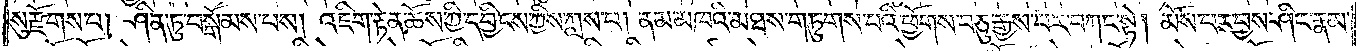སུ་རྫོགས་པ། ཤིན་ཏུ་བསྒོམས་པས། འཇིག་རྟེན་ཆོས་ཀྱི་དབྱིངས་ཀྱིས་ཀླས་པ། ནམ་མཁའི་མཐས་གཏུགས་པའི་ཕྱོགས་བཅུ་རྒྱས་པར་བཀང་སྟེ། མོས་པར་བྱས་ཤིང་རྣམ་
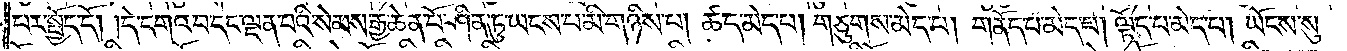པར་སྤྱོད་དོ། །དེ་དགའ་བ་དང་ལྡན་པའི་སེམས་རྒྱ་ཆེན་པོ་ཤིན་ཏུ་ཡངས་པ་མི་གཉིས་པ། ཚད་མེད་པ། གཅུགས་མེད་པ། གནོད་པ་མེད་པ། ལྟོད་པ་མེད་པ། ཡོངས་སུ་
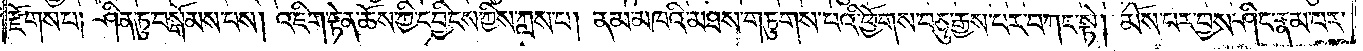རྫོགས་པ། ཤིན་ཏུ་བསྒོམས་པས། འཇིག་རྟེན་ཆོས་ཀྱི་དབྱིངས་ཀྱིས་ཀླས་པ། ནམ་མཁའི་མཐས་གཏུགས་པའི་ཕྱོགས་བཅུ་རྒྱས་པར་བཀང་སྟེ། མོས་པར་བྱས་ཤིང་རྣམ་པར་
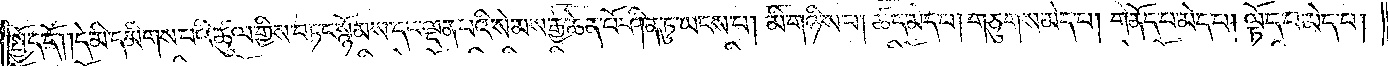སྤྱོད་དོ། །དེ་མི་དམིགས་པའི་ཚུལ་གྱིས་བཏང་སྙོམས་དང་ལྡན་པའི་སེམས་རྒྱ་ཆེན་པོ་ཤིན་ཏུ་ཡངས་པ། མི་གཉིས་པ། ཚད་མེད་པ། གཅུགས་མེད་པ། གནོད་པ་མེད་པ། ལྟོད་པ་མེད་པ།
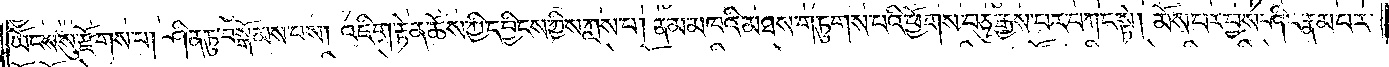ཡོངས་སུ་རྫོགས་པ། ཤིན་ཏུ་བསྒོམས་པས། འཇིག་རྟེན་ཆོས་ཀྱི་དབྱིངས་ཀྱིས་ཀླས་པ། ནམ་མཁའི་མཐས་གཏུགས་པའི་ཕྱོགས་བཅུ་རྒྱས་པར་བཀང་སྟེ། མོས་པར་བྱས་ཤིང་རྣམ་པར་
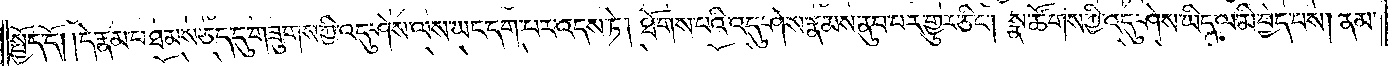སྤྱོད་དོ། །དེ་རྣམ་པ་ཐམས་ཅད་དུ་གཟུགས་ཀྱི་འདུ་ཤེས་ལས་ཡང་དག་པར་འདས་ཏེ། ཐོགས་པའི་འདུ་ཤེས་རྣམས་ནུབ་པར་གྱུར་ཅིང༌། སྣ་ཚོགས་ཀྱི་འདུ་ཤེས་ཡིད་ལ་མི་བྱེད་པས། ནམ་
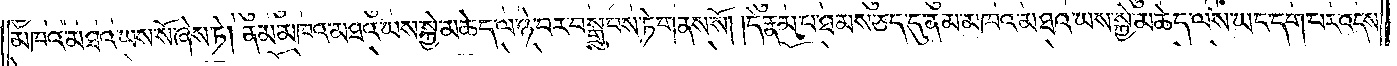མཁའ་མཐའ་ཡས་སོ་ཞེས་ཏེ། ནམ་མཁའ་མཐའ་ཡས་སྐྱེ་མཆེད་ལ་ཉེ་བར་བསྒྲུབས་ཏེ་གནས་སོ། །དེ་རྣམ་པ་ཐམས་ཅད་དུ་ནམ་མཁའ་མཐའ་ཡས་སྐྱེ་མཆེད་ལས་ཡང་དག་པར་འདས་
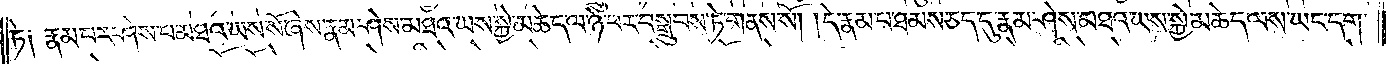ཏེ། རྣམ་པར་ཤེས་པ་མཐའ་ཡས་སོ་ཞེས་རྣམ་ཤེས་མཐའ་ཡས་སྐྱེ་མཆེད་ལ་ཉེ་བར་བསྒྲུབས་ཏེ་གནས་སོ། །དེ་རྣམ་པ་ཐམས་ཅད་དུ་རྣམ་ཤེས་མཐའ་ཡས་སྐྱེ་མཆེད་ལས་ཡང་དག་
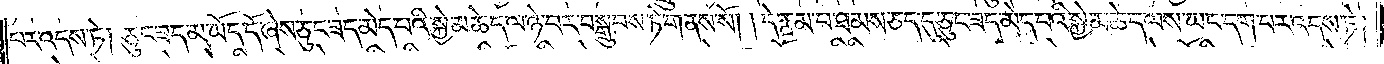པར་འདས་ཏེ། ཅུང་ཟད་མ་ཡོད་དོ་ཞེས་ཅུང་ཟད་མེད་པའི་སྐྱེ་མཆེད་ལ་ཉེ་བར་བསྒྲུབས་ཏེ་གནས་སོ། །དེ་རྣམ་པ་ཐམས་ཅད་དུ་ཅུང་ཟད་མེད་པའི་སྐྱེ་མཆེད་ལས་ཡང་དག་པར་འདས་ཏེ།
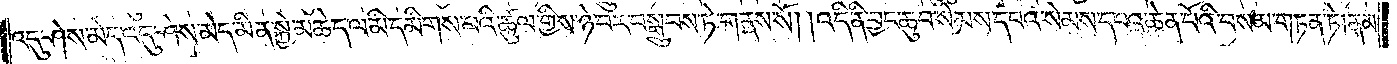འདུ་ཤེས་མེད་འདུ་ཤེས་མེད་མིན་སྐྱེ་མཆེད་ལ་མི་དམིགས་པའི་ཚུལ་གྱིས་ཉེ་བར་བསྒྲུབས་ཏེ་གནས་སོ། །འདི་ནི་བྱང་ཆུབ་སེམས་དཔའ་སེམས་དཔའ་ཆེན་པོའི་བསམ་གཏན་ཏེ། ནམ་
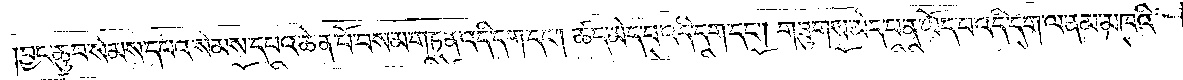བྱང་ཆུབ་སེམས་དཔའ་སེམས་དཔའ་ཆེན་པོ་བསམ་གཏན་འདི་དག་དང༌། ཚད་མེད་པ་འདི་དག་དང༌། གཟུགས་མེད་པ་ན་ཡོད་པ་འདི་དག་ལ་ནམ་མཁའི་
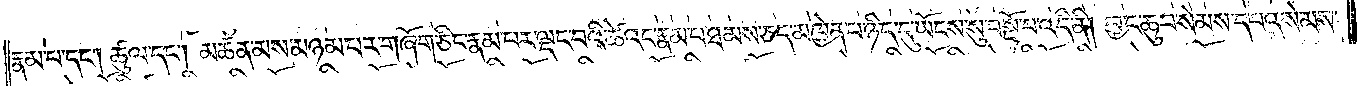རྣམ་པ་དང༌། ཚུལ་དང༌། མཚན་མས་མཉམ་པར་གཞོག་ཅིང་རྣམ་པར་ལྡང་བའི་ཚེའང་རྣམ་པ་ཐམས་ཅད་མཁྱེན་པ་ཉིད་དུ་ཡོངས་སུ་བསྔོ་བ་འདི་ནི། བྱང་ཆུབ་སེམས་དཔའ་སེམས་
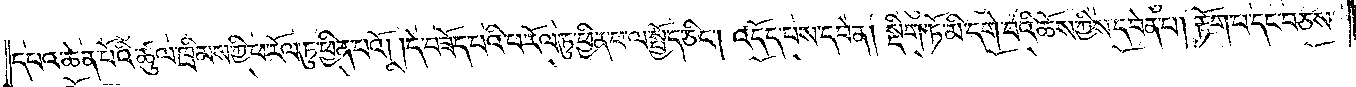དཔའ་ཆེན་པོའི་ཚུལ་ཁྲིམས་ཀྱི་ཕ་རོལ་ཏུ་ཕྱིན་པའོ། །དེ་བཟོད་པའི་ཕ་རོལ་ཏུ་ཕྱིན་པ་ལ་སྤྱོད་ཅིང༌། འདོད་པས་དབེན། སྡིག་ཏོ་མི་དགེ་བའི་ཆོས་ཀྱིས་དབེན་པ། རྟོག་པ་དང་བཅས་
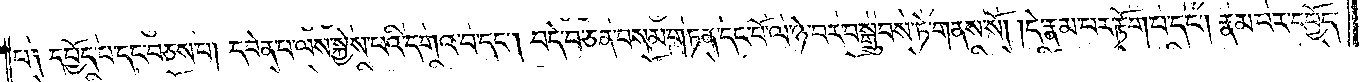པ༑ དཔྱོད་པ་དང་བཅས་པ། དབེན་པ་ལས་སྐྱེས་པའི་དགའ་བ་དང༌། བདེ་བ་ཅན་བསམ་གཏན་དང་པོ་ལ་ཉེ་བར་བསྒྲུབས་ཏེ་གནས་སོ། །དེ་རྣམ་པར་རྟོག་པ་དང༌། རྣམ་པར་དཔྱོད་
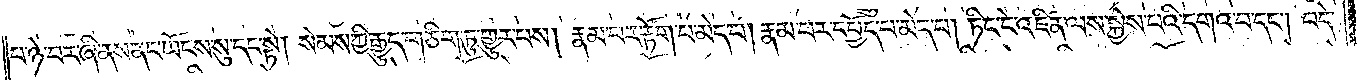པ་ཉེ་བར་ཞི་ནས་ནང་ཡོངས་སུ་དང་སྟེ། སེམས་ཀྱི་རྒྱུད་གཅིག་ཏུ་གྱུར་པས། རྣམ་པར་རྟོག་པ་མེད་པ། རྣམ་པར་དཔྱོད་པ་མེད་པ། ཏིང་ངེ་འཛིན་ལས་སྐྱེས་པའི་དགའ་བ་དང༌། བདེ་
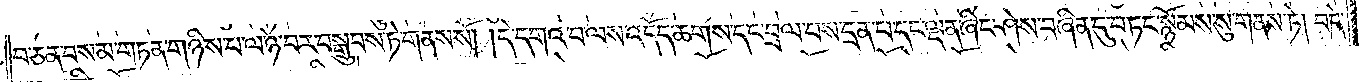བ་ཅན་བསམ་གཏན་གཉིས་པ་ལ་ཉེ་བར་བསྒྲུབས་ཏེ་གནས་སོ། །དེ་དགའ་བ་ལས་འདོད་ཆགས་དང་བྲལ་བས་དྲན་པ་དང་ལྡན་ཞིང་ཤེས་བཞིན་དུ་བཏང་སྙོམས་སུ་གནས་ཏེ། བདེ་
